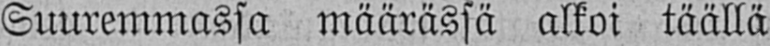Suuremmassa määrässä alkoi täällä
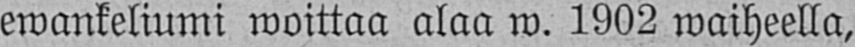ewankeliumi woittaa alaa w. 1902 waiheella,
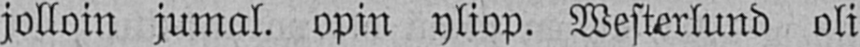jolloin jumal, opin yliop. Westerlund oli
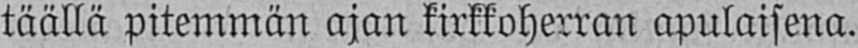täällä pitemmän ajan kirkkoherran apulaisena.
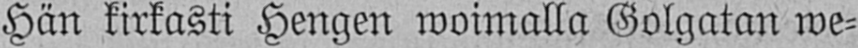Hän kirkasti Hengen woimalla Golgatan we-
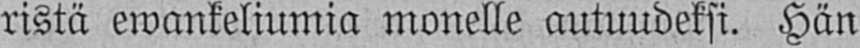ristä ewankeliumia monelle autuudeksi. Hän
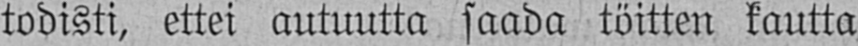todisti, ettei autuutta saada töitten kautta
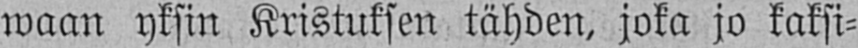waan yksin Kristuksen tähden, joka jo kaksi-
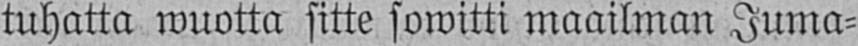tuhatta wuotta sitte sowitti maailman Juma-
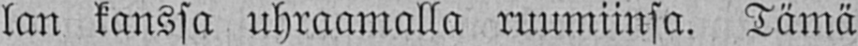lan kanssa uhraamalla ruumiinsa. Tämä
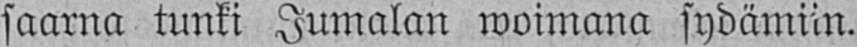saarna tunki Jumalan woimana sydämiin.
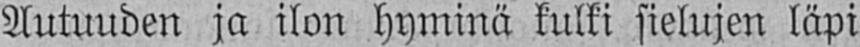Autuuden ja ilon hyminä kulki sielujen läpi
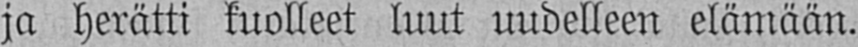ja herätti kuolleet luut uudelleen elämään.
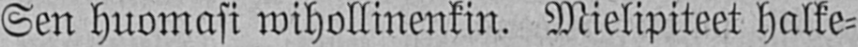Sen huomasi wihollinenkin. Mielipiteet halke-
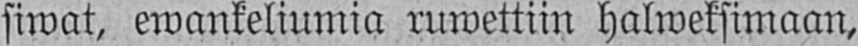siwat, ewankeliumia ruwettiin halweksimaan,
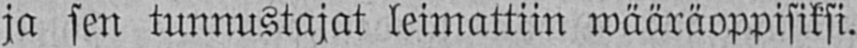ja sen tunnustajat leimattiin wääräoppisiksi.
